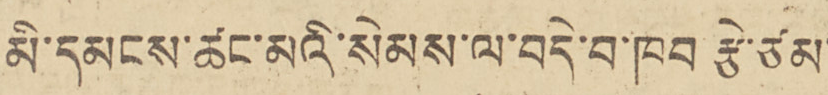མི་དམངས་ཚང་མའི་སེམས་ལ་བདེ་བ་ཁབ རྩེ་ཙམ་
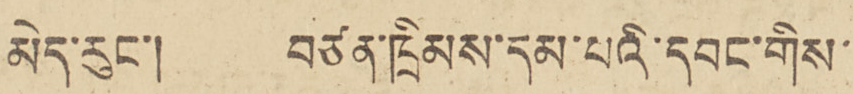མེད་རུང་། བཙན་ཁྲིམས་དམ་པའི་དབང་གིས་
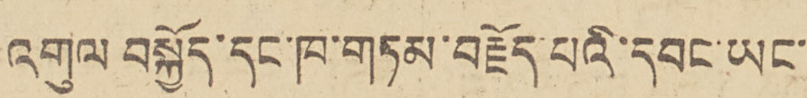འགུལ བསྐྱོད་དང་ཁ་གཏམ་བརྗོད་པའི་དབང་ཡང་
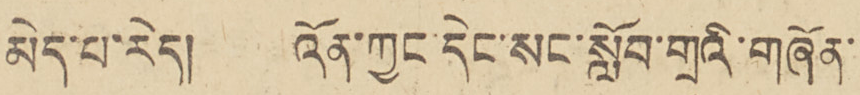མེད་པ་རེད། འོན་ཀྱང་དེང་སང་སློབ་གྲྭའི་གཞོན་
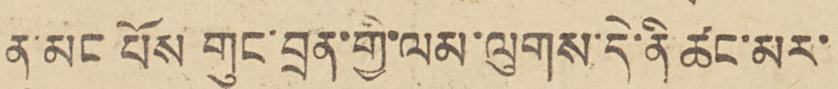ནུ་མང པོས གུང་བྲན་གྱི་ལམ་ལུགས་དེ་ནི་ཚང་མར་
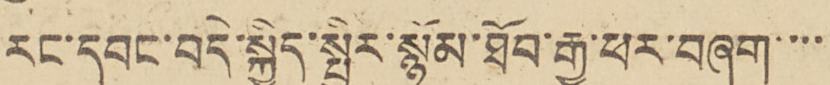རང་དབང་བདེ་སྐྱིད་སྤྱིར་སྙོམ་ཐོབ་རྒྱུ་ཕར་བཞག་་་་
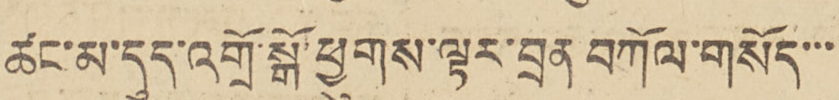ཚང་མ་དུད་དུ་འགྲོ་སྒོ་ཕྱུགས་ལྟར་བྲན བཀོལ་གསོད་་་
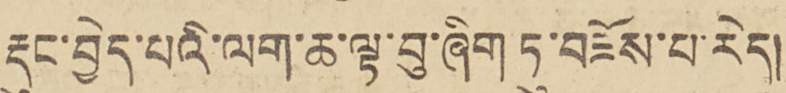རྡུང་བྱེད་པའི་ལག་ཆ་ལྟ་བུ་ཞིག ཏུ་བཟོས་པ་རེད།
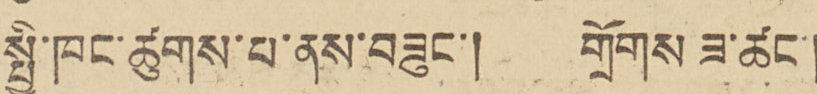སྤྱི་ཁང་ཚུགས་པ་ནས་བཟུང་། གྲོགས་ཟ་ཚང་།
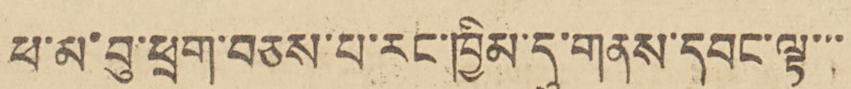ཕ་མ་བུ་ཕྲུག་བཅས་པ་རང་ཁྱིམ་དུ་གནས་དབང་ལྟ་་་
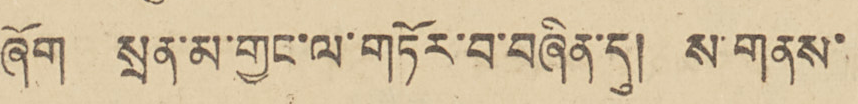ཞིག སྲན་མ་གྱང་ལ་གཏོར་བ་བཞིན་དུ། ས་གནས་
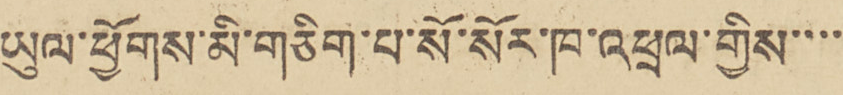ཡུལ་ཕྱོགས་མི་གཅིག་པ་སོ་སོར་ཁ་འཕྲལ་གྱིས་་་་
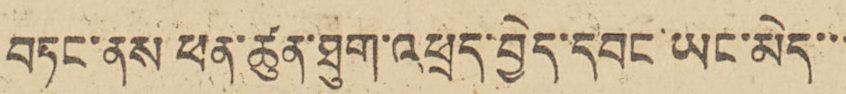བཏང་ནས་ཕན་ཚུན་ཐུག་འཕྲད་བྱེད་དབང ཡང་མེད་་་
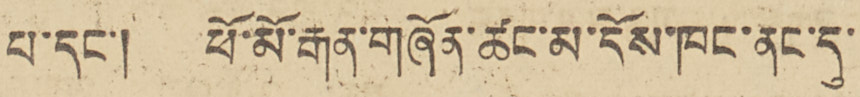པ་དང་། ཕོ་མོ་རྒན་གཞོན་ཚང་མ་དོས་ཁང་ནང་དུ་
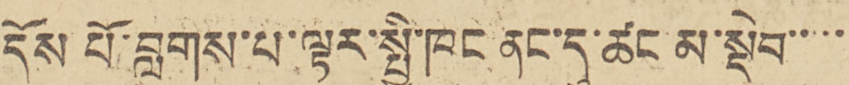དོས་ པོ་བླུགས་པ་ལྟར་སྤྱི་ཁང ནང་དུ་ཚང་མ་སྡེབ་་་་་
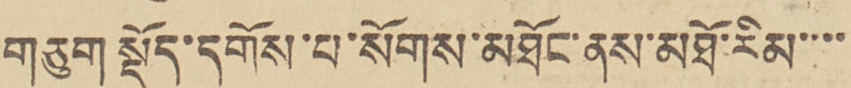གཅུག སྡོད་དགོས་པ་སོགས་པ་སོགས་མཐོང་ནས་མཐོ་རིམ་་་་
